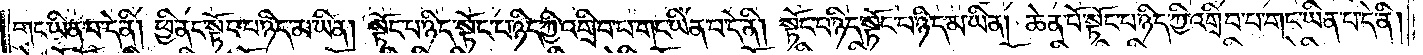གང་ཡིན་པ་དེ་ནི། ཕྱི་ནང་སྟོང་པ་ཉིད་མ་ཡིན། སྟོང་པ་ཉིད་སྟོང་པ་ཉིད་ཀྱི་འགྲིབ་པ་གང་ཡིན་པ་དེ་ནི། སྟོང་པ་ཉིད་སྟོང་པ་ཉིད་མ་ཡིན། ཆེན་པོ་སྟོང་པ་ཉིད་ཀྱི་འགྲིབ་པ་གང་ཡིན་པ་དེ་ནི།
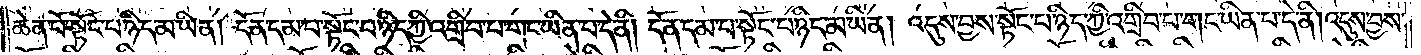ཆེན་པོ་སྟོང་པ་ཉིད་མ་ཡིན། དོན་དམ་པ་སྟོང་པ་ཉིད་ཀྱི་འགྲིབ་པ་གང་ཡིན་པ་དེ་ནི། དོན་དམ་པ་སྟོང་པ་ཉིད་མ་ཡིན། འདུས་བྱས་སྟོང་པ་ཉིད་ཀྱི་འགྲིབ་པ་གང་ཡིན་པ་དེ་ནི། འདུས་བྱས་
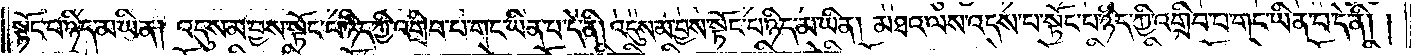སྟོང་པ་ཉིད་མ་ཡིན། འདུས་མ་བྱས་སྟོང་པ་ཉིད་ཀྱི་འགྲིབ་པ་གང་ཡིན་པ་དེ་ནི། འདུས་མ་བྱས་སྟོང་པ་ཉིད་མ་ཡིན། མཐའ་ལས་འདས་པ་སྟོང་པ་ཉིད་ཀྱི་འགྲིབ་པ་གང་ཡིན་པ་དེ་ནི། །
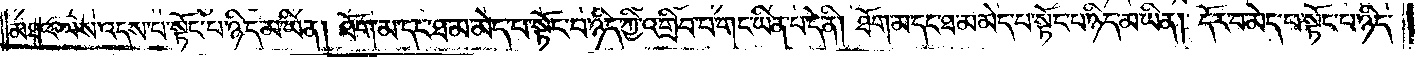མཐའ་ལས་འདས་པ་སྟོང་པ་ཉིད་མ་ཡིན། ཐོག་མ་དང་ཐ་མ་མེད་པ་སྟོང་པ་ཉིད་ཀྱི་འགྲིབ་པ་གང་ཡིན་པ་དེ་ནི། ཐོག་མ་དང་ཐ་མ་མེད་པ་སྟོང་པ་ཉིད་མ་ཡིན། དོར་བ་མེད་པ་སྟོང་པ་ཉིད་
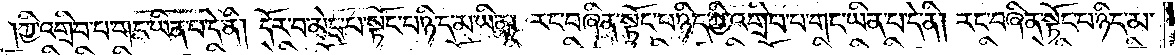ཀྱི་འགྲིབ་པ་གང་ཡིན་པ་དེ་ནི། དོར་བ་མེད་པ་སྟོང་པ་ཉིད་མ་ཡིན། རང་བཞིན་སྟོང་པ་ཉིད་ཀྱི་འགྲིབ་པ་གང་ཡིན་པ་དེ་ནི། རང་བཞིན་སྟོང་པ་ཉིད་མ་
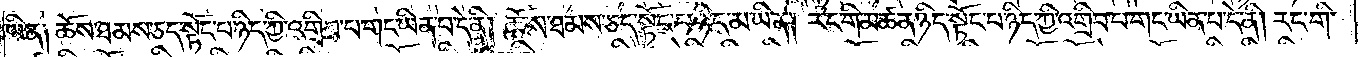ཡིན༏ ཆོས་ཐམས་ཅད་སྟོང་པ་ཉིད་ཀྱི་འགྲིབ་པ་གང་ཡིན་པ་དེ་ནི། ཆོས་ཐམས་ཅད་སྟོང་པ་ཉིད་མ་ཡིན། རང་གི་མཚན་ཉིད་སྟོང་པ་ཉིད་ཀྱི་འགྲིབ་པ་གང་ཡིན་པ་དེ་ནི། རང་གི་
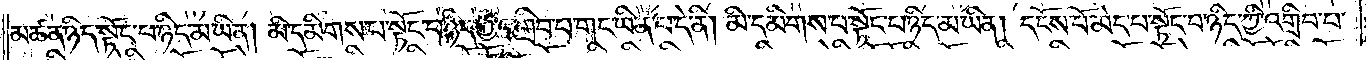མཚན་ཉིད་སྟོང་པ་ཉིད་མ་ཡིན། མི་དམིགས་པ་སྟོང་པ་ཉིད་ཀྱི་འགྲིབ་པ་གང་ཡིན་པ་དེ་ནི། མི་དམིགས་པ་སྟོང་པ་ཉིད་མ་ཡིན། དངོས་པོ་མེད་པ་སྟོང་པ་ཉིད་ཀྱི་འགྲིབ་པ་
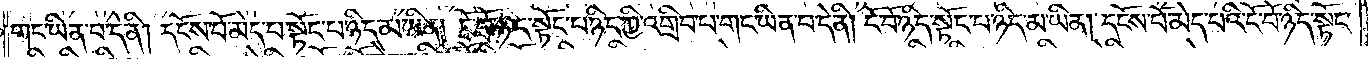གང་ཡིན་པ་དེ་ནི། དངོས་པོ་མེད་པ་སྟོང་པ་ཉིད་མ་ཡིན། ངོ་བོ་ཉིད་སྟོང་པ་ཉིད་ཀྱི་འགྲིབ་པ་གང་ཡིན་པ་དེ་ནི། ངོ་བོ་ཉིད་སྟོང་པ་ཉིད་མ་ཡིན། དངོས་པོ་མེད་པའི་ངོ་བོ་ཉིད་སྟོང་
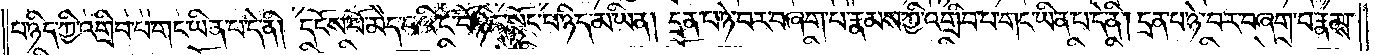པ་ཉིད་ཀྱི་འགྲིབ་པ་གང་ཡིན་པ་དེ་ནི། དངོས་པོ་མེད་པའི་ངོ་བོ་ཉིད་སྟོང་པ་ཉིད་མ་ཡིན། དྲན་པ་ཉེ་བར་བཞག་པ་རྣམས་ཀྱི་འགྲིབ་པ་གང་ཡིན་པ་དེ་ནི། དྲན་པ་ཉེ་བར་བཞག་པ་རྣམས་
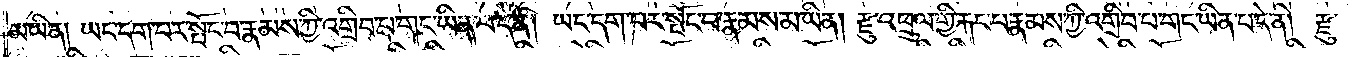མ་ཡིན། ཡང་དག་པར་སྤོང་བ་རྣམས་ཀྱི་འགྲིབ་པ་གང་ཡིན་པ་དེ་ནི། ཡང་དག་པར་སྤོང་བ་རྣམས་མ་ཡིན། རྫུ་འཕྲུལ་གྱི་རྐང་པ་རྣམས་ཀྱི་འགྲིབ་པ་གང་ཡིན་པ་དེ་ནི། རྫུ་
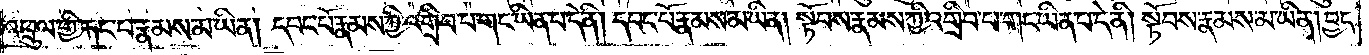འཕྲུལ་གྱི་རྐང་པ་རྣམས་མ་ཡིན། དབང་པོ་རྣམས་ཀྱི་འགྲིབ་པ་གང་ཡིན་པ་དེ་ནི། དབང་པོ་རྣམས་མ་ཡིན། སྟོབས་རྣམས་ཀྱི་འགྲིབ་པ་གང་ཡིན་པ་དེ་ནི། སྟོབས་རྣམས་མ་ཡིན། བྱང་
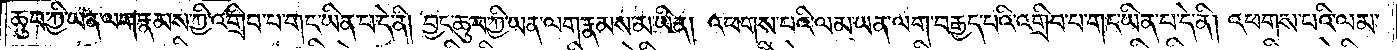ཆུབ་ཀྱི་ཡན་ལག་རྣམས་ཀྱི་འགྲིབ་པ་གང་ཡིན་པ་དེ་ནི། བྱང་ཆུབ་ཀྱི་ཡན་ལག་རྣམས་མ་ཡིན། འཕགས་པའི་ལམ་ཡན་ལག་བརྒྱད་པའི་འགྲིབ་པ་གང་ཡིན་པ་དེ་ནི། འཕགས་པའི་ལམ་
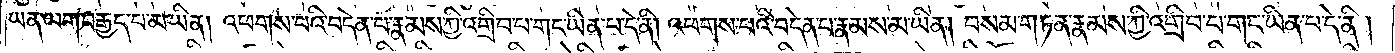ཡན་ལག་བརྒྱད་པ་མ་ཡིན། འཕགས་པའི་བདེན་པ་རྣམས་ཀྱི་འགྲིབ་པ་གང་ཡིན་པ་དེ་ནི། འཕགས་པའི་བདེན་པ་རྣམས་མ་ཡིན། བསམ་གཏན་རྣམས་ཀྱི་འགྲིབ་པ་གང་ཡིན་པ་དེ་ནི།
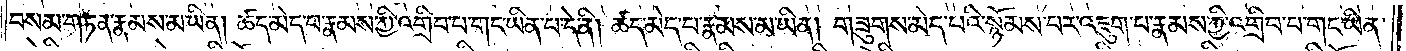བསམ་གཏན་རྣམས་མ་ཡིན། ཚད་མེད་པ་རྣམས་ཀྱི་འགྲིབ་པ་གང་ཡིན་པ་དེ་ནི། ཚད་མེད་པ་རྣམས་མ་ཡིན། གཟུགས་མེད་པའི་སྙོམས་པར་འཇུག་པ་རྣམས་ཀྱི་འགྲིབ་པ་གང་ཡིན་
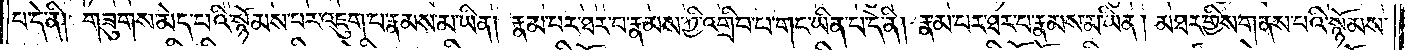པ་དེ་ནི། གཟུགས་མེད་པའི་སྙོམས་པར་འཇུག་པ་རྣམས་མ་ཡིན། རྣམ་པར་ཐར་པ་རྣམས་ཀྱི་འགྲིབ་པ་གང་ཡིན་པ་དེ་ནི། རྣམ་པར་ཐར་པ་རྣམས་མ་ཡིན། མཐར་གྱིས་གནས་པའི་སྙོམས་
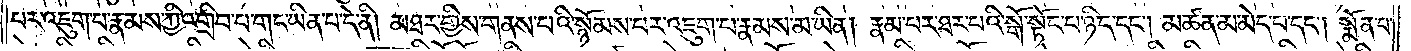པར་འཇུག་པ་རྣམས་ཀྱི་འགྲིབ་པ་གང་ཡིན་པ་དེ་ནི། མཐར་གྱིས་གནས་པའི་སྙོམས་པར་འཇུག་པ་རྣམས་མ་ཡིན། རྣམ་པར་ཐར་པའི་སྒོ་སྟོང་པ་ཉིད་དང༌། མཚན་མ་མེད་པ་དང༌། སྨོན་པ་
